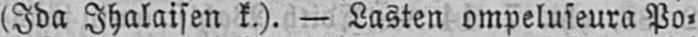(Ida Ihalaisen k.). — Lasten ompeluseura Po-
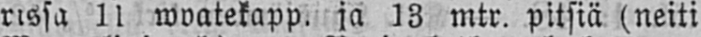rissa 11 wvatekapp. ja 13 mtr. pitsiä (neiti
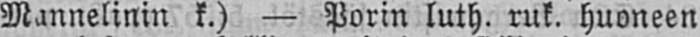Mannelinin k.) — Porin luth. ruk. huoneen
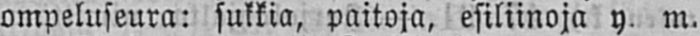ompeluseura: sukkia, paitoja, esiliinoja y. m.
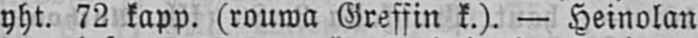yht. 72 kapp. (rouwa Greffin k.). — Heinolan
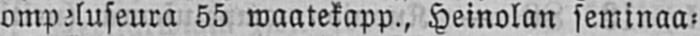ompeluseura 55 waatekapp., Heinolan seminaa-
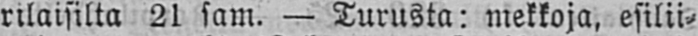rilaisilta 21 sam. — Turusta: mekkoja, esilii-
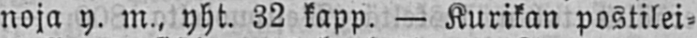noja y. m., yht. 32 kapp. — Kurikan postilei-
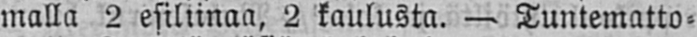malla 2 esiliinaa, 2 kaulusta. — Tuntematto-
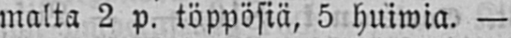malta 2 p. töppösiä, 5 huiwia. —
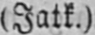(Jatk.)
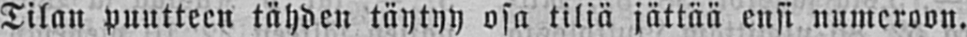Tilan puutteen tähden täytyy osa tiliä jättää ensi numeroon.
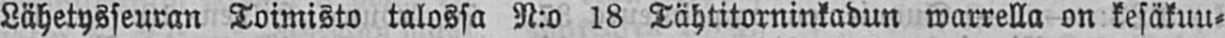Lähetysseuran Toimisto talossa N:o 18 Tähtitorninkadun warrella on kesäkuu-
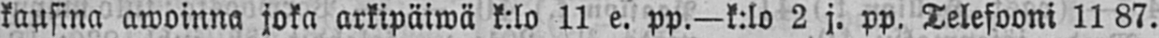kausina awoinna joka arkipäiwä k:lo 11 e. pp.—k:lo 2 j. pp. Telefooni 11 87.
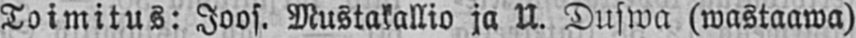Toimitus: Joof. Mustakallio ja U. Duswa (wastaawa).
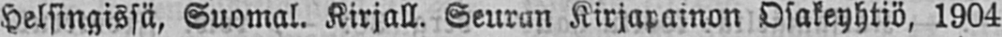Helsingissä, Suomal. Kirjall. Seuran Kirjapainon Osakeyhtiö, 1904.
